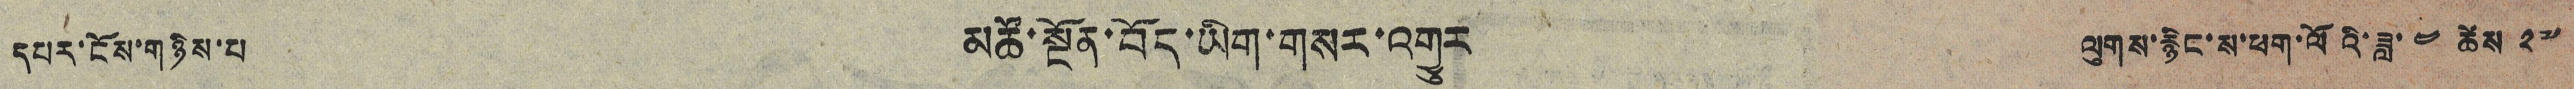དཔར་ངོས་གཉིས་པ མཚོ་སྔོན་བོད་ཡིག་གསར་འགྱུར ལུགས་རྙིང་ས་ཕག་ལོའི་ཟླ་ ༤ ཚེས ༢༧
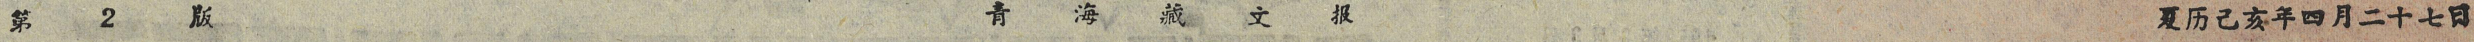第 2 版 青 海 藏 文 报 夏历己亥年四月二十七日
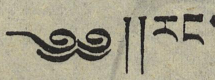༄༅༎ རང་
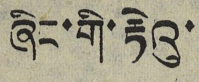ཞིང་གི་རྟེའུ་
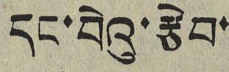དང་བེའུ་རྩེབ་
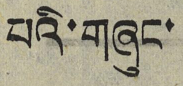པའི་གཞུང་
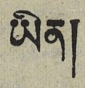ཡིན།
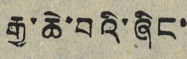རྒྱ་ཆེ་བའི་ཞིང་
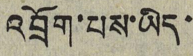འབྲོག་པས་ཡིད་
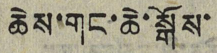ཆེས་གང་ཆེ་སྒོས་
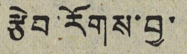རྩེབ་རོགས་བྱ་
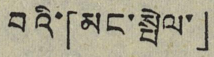བའི་「མང་སྤེལ་」
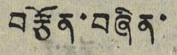བརྩོན་བཞིན་
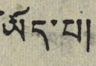ཡོད་པ།
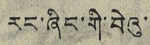རང་ཞིང་གི་བེའུ་་
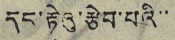དང་རྟེའུ་རྩེབ་པའི་་
